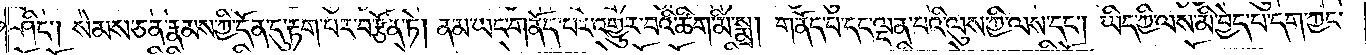ཤིང༌། སེམས་ཅན་རྣམས་ཀྱི་དོན་དུ་རྟག་པར་བརྩོན་ཏེ། ནམ་ཡང་གནོད་པར་འགྱུར་བའི་ཚིག་མི་སྨྲ། གནོད་པ་དང་ལྡན་པའི་ལུས་ཀྱི་ལས་དང༌། ཡིད་ཀྱི་ལས་མི་བྱེད་པ་དག་ཀྱང་
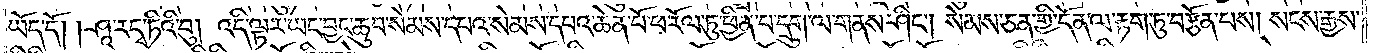ཡོད་དོ། །ཤཱ་ར་དྭ་ཏིའི་བུ༑ འདི་ལྟར་ཡང་བྱང་ཆུབ་སེམས་དཔའ་སེམས་དཔའ་ཆེན་པོ་ཕ་རོལ་ཏུ་ཕྱིན་པ་དྲུག་ལ་གནས་ཤིང༌། སེམས་ཅན་གྱི་དོན་ལ་རྟག་ཏུ་བརྩོན་པས། སངས་རྒྱས་
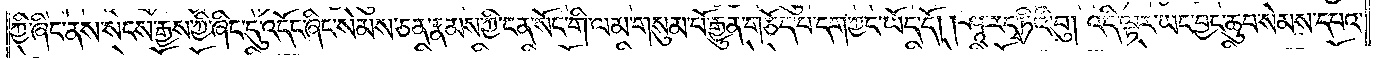ཀྱི་ཞིང་ནས་སངས་རྒྱས་ཀྱི་ཞིང་དུ་འདོང་ཞིང་སེམས་ཅན་རྣམས་ཀྱི་ངན་སོང་གི་ལམ་གསུམ་པོ་རྒྱུན་གཅོད་པ་དག་ཀྱང་ཡོད་དོ། །ཤཱ་ར་དྭ་ཏིའི་བུ། འདི་ལྟར་ཡང་བྱང་ཆུབ་སེམས་དཔའ་
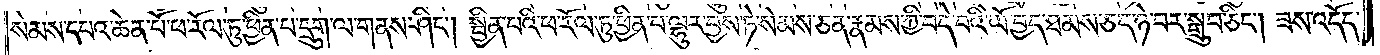སེམས་དཔའ་ཆེན་པོ་ཕ་རོལ་ཏུ་ཕྱིན་པ་དྲུག་ལ་གནས་ཤིང༌། སྦྱིན་པའི་ཕ་རོལ་ཏུ་ཕྱིན་པ་ལྷུར་བྱས་ཏེ་སེམས་ཅན་རྣམས་ཀྱི་བདེ་བའི་ཡོ་བྱད་ཐམས་ཅད་ཉེ་བར་སྒྲུབ་ཅིང༌། ཟས་འདོད་
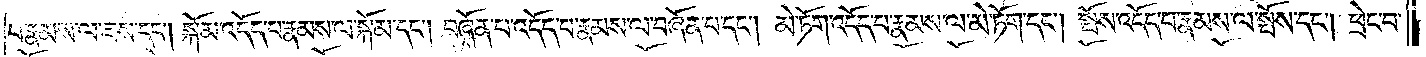པ་རྣམས་ལ་ཟས་དང༌། སྐོམ་འདོད་པ་རྣམས་ལ་སྐོམ་དང༌། བཞོན་པ་འདོད་བ་རྣམས་ལ་བཞོན་པ་དང༌། མེ་ཏོག་འདོད་པ་རྣམས་ལ་མེ་ཏོག་དང༌། སྤོས་འདོད་པ་རྣམས་ལ་སྤོས་དང༌། ཕྲེང་བ་
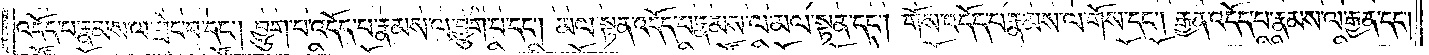འདོད་པ་རྣམས་ལ་ཕྲེང་བ་དང༌། བྱུག་པ་འདོད་པ་རྣམས་ལ་བྱུག་པ་དང༌། མལ་སྟན་འདོད་པ་རྣམས་ལ་མལ་སྟན་དང༌། གོས་འདོད་པ་རྣམས་ལ་གོས་དང༌། རྒྱན་འདོད་པ་རྣམས་ལ་རྒྱན་དང༌།
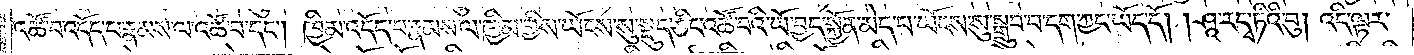འཚོ་བ་འདོད་པ་རྣམས་ལ་འཚོ་བ་དང༌། ཁྱིམ་འདོད་པ་རྣམས་ལ་ཁྱིམ་གྱིས་ཡོངས་སུ་སྡུད་ཅིང་འཚོ་བའི་ཡོ་བྱད་སྐྱོན་མེད་པ་ཡོངས་སུ་སྒྲུབ་པ་དག་ཀྱང་ཡོད་དོ། །ཤཱ་ར་དྭ་ཏིའི་བུ། འདི་ལྟར་
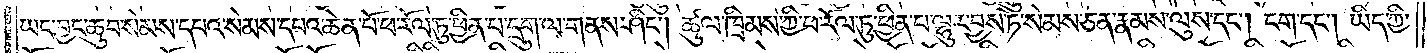ཡང་བྱང་ཆུབ་སེམས་དཔའ་སེམས་དཔའ་ཆེན་པོ་ཕ་རོལ་ཏུ་ཕྱིན་པ་དྲུག་ལ་གནས་ཤིང༌། ཚུལ་ཁྲིམས་ཀྱི་ཕ་རོལ་ཏུ་ཕྱིན་པ་ལྷུར་བྱས་ཏེ་སེམས་ཅན་རྣམས་ལུས་དང༌། ངག་དང༌། ཡིད་ཀྱི་
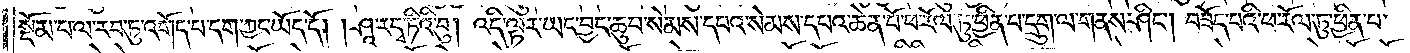སྡོམ་པ་ལ་རབ་ཏུ་འགོད་པ་དག་ཀྱང་ཡོད་དོ། །ཤཱ་ར་དྭ་ཏིའི་བུ། འདི་ལྟར་ཡང་བྱང་ཆུབ་སེམས་དཔའ་སེམས་དཔའ་ཆེན་པོ་ཕ་རོལ་ཏུ་ཕྱིན་པ་དྲུག་ལ་གནས་ཤིང༌། བཟོད་པའི་ཕ་རོལ་ཏུ་ཕྱིན་པ་
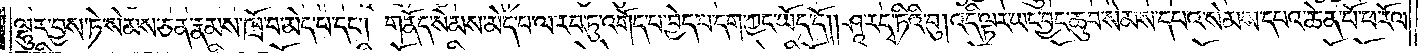ལྷུར་བྱས་ཏེ་སེམས་ཅན་རྣམས་ཁྲོ་བ་མེད་པ་དང༌། གནོད་སེམས་མེད་པ་ལ་རབ་ཏུ་འགོད་པ་བྱེད་པ་དག་ཀྱང་ཡོད་དོ། །ཤཱ་ར་དྭ་ཏིའི་བུ། འདི་ལྟར་ཡང་བྱང་ཆུབ་སེམས་དཔའ་སེམས་དཔའ་ཆེན་པོ་ཕ་རོལ་
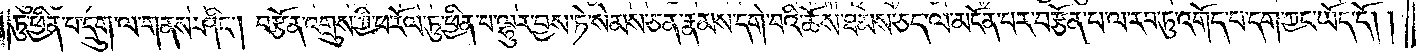ཏུ་ཕྱིན་པ་དྲུག་ལ་གནས་ཤིང༌། བརྩོན་འགྲུས་ཀྱི་ཕ་རོལ་ཏུ་ཕྱིན་པ་ལྷུར་བྱས་ཏེ་སེམས་ཅན་རྣམས་དགེ་བའི་ཆོས་ཐམས་ཅད་ལ་མངོན་པར་བརྩོན་པ་ལ་རབ་ཏུ་འགོད་པ་དག་ཀྱང་ཡོད་དོ༎
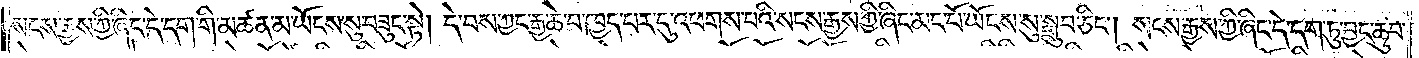སངས་རྒྱས་ཀྱི་ཞིང་དེ་དག་མཚན་མ་ཡོངས་སུ་བཟུང་སྟེ། དེ་བས་ཀྱང་རྒྱ་ཆེ་བ་ཁྱད་པར་དུ་སངས་རྒྱས་ཀྱི་ཞིང་མང་པོ་ཡོངས་སུ་སྒྲུབ་ཅིང་། སངས་རྒྱས་ཀྱི་ཞིང་ད་དག་ཏུ་བྱང་ཆུབ་
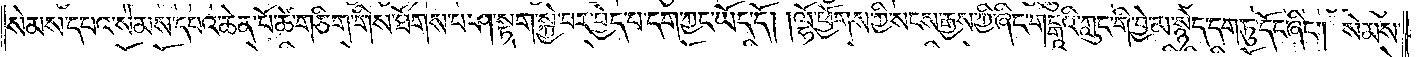སེམས་དཔའ་སེམས་དཔའ་ཆེན་པོ་ཚེ་གཅིག་གིས་ཐོགས་པ་ཤ་སྟག་སྐྱེ་བར་བྱེད་པ་དག་ཀྱང་ཡོད། ལྷོ་ཕྱོགས་ཀྱི་སངས་རྒྱས་ཀྱི་ཞིང་གངྒཱའི་ཀླུང་གི་བྱི་མ་སྙེད་དག་ཏུ་དོང་ཞིང་། སེམས་
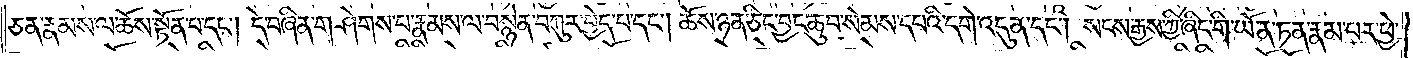ཅན་རྣམས་ལ་ཆོས་སྟོན་པ་དང་། དེ་བཞིན་གཤེགས་པ་རྣམས་ལ་བསྙེན་བཀུར་བྱེད་པ་དང་། ཆོས་ཉན་ཅིང་བྱང་ཆུབ་སེམས་པའི་དགེ་འདུན་དང་།  སངས་རྒྱས་ཀྱི་ཞིང་གི་ཡོན་ཏན་རྣམ་པར་ཕྱེ་
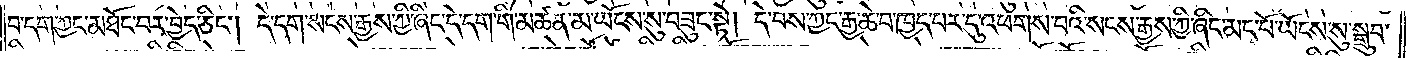བ་དག་ཀྱང་མཐོང་བར་བྱེད་ཅིང་། དེ་དག་སངས་རྒྱས་ཀྱི་ཞིང་དེ་དག་གི་མཚན་མ་ཡོངས་སུ་བཟུང་སྟེ། དེ་བས་ཀྱང་རྒྱ་ཆེ་བ་ཁྱད་པར་དུ་འཕགས་པའི་སངས་རྒྱས་ཀྱི་ཞིང་མང་པོ་ཡོངས་སུ་སྒྲུབ་
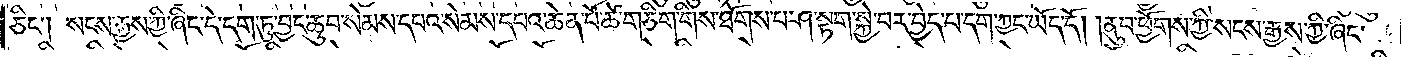ཅིང་། སངས་རྒྱས་ཀྱི་ཞིང་དེ་དག་ཏུ་བྱང་ཆུབ་སེམས་དཔའ་སེམས་དཔའ་ཆེན་པོ་ཚེ་གཅིག་གིས་ཐོགས་པ་ཤ་སྟག་སྐྱེ་བར་བྱེད་པ་དག་ཀྱང་ཡོད་དོ། །ནུབ་ཕྱོགས་ཀྱི་སངས་རྒྱས་ཀྱི་ཞིང་
